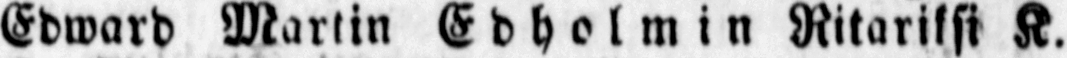Edward Martin Edholmin Ritariksi K.
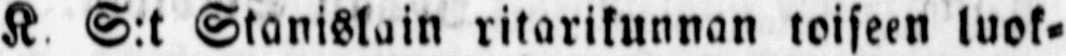K S:t Stanislain ritarikunnan toiseen luok-
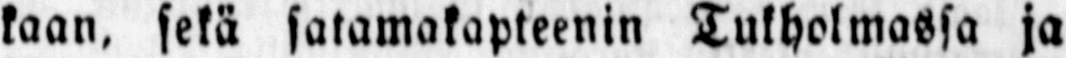kaan, sekä satamakapteenin Tukholmassa ja
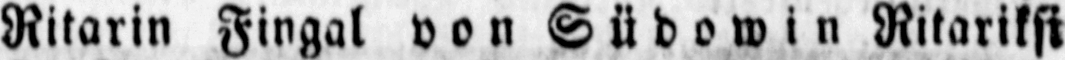Ritarin Fingal von Südowin Ritariksi
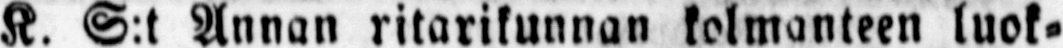K. S:t Annan ritarikunnan kolmanteen luok-
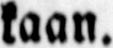kaan.
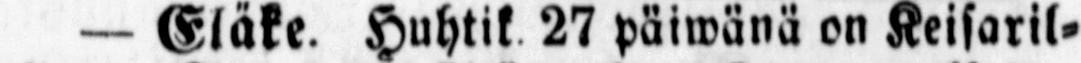— Eläke. Huhtik. 27 päiwänä on Keisaril-
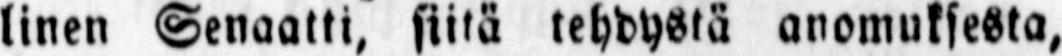linen Senaatti, siitä tehdystä anomuksesta,
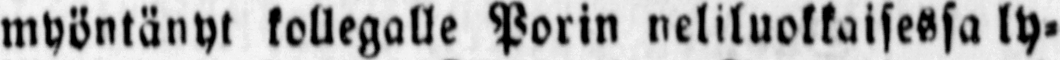myöntänyt kollegalle Porin neliluolkaisessa ly-
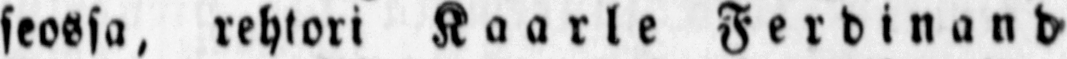seossa, rehtori Kaarle Ferdinand
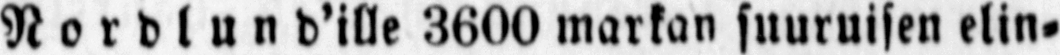Nordlund'ille 3600 markan suuruisen elin-
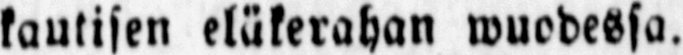kautisen eläkerahan wuodessa.
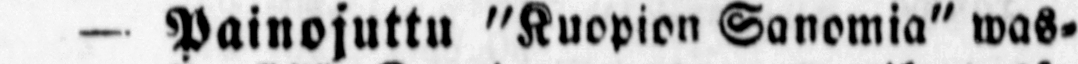— Painojuttu "Kuopion Sanomia" was-
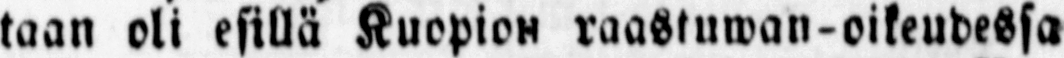taan oli esillä Kuopion raastuwan-oikeudessa
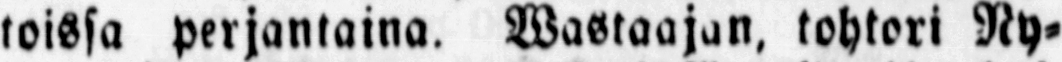toissa perjantaina. Wastaajan, tohtori Ny-
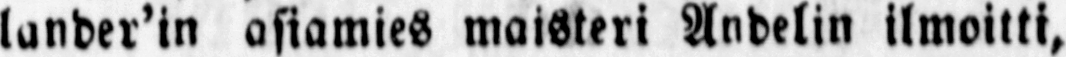lander'in asiamies maisteri Andelin ilmoitti,
